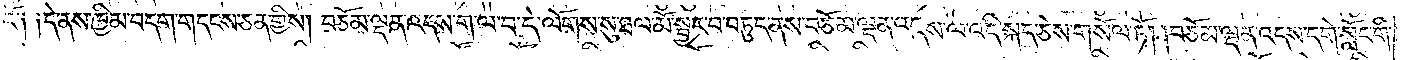ངོ༑ ༑དེ་ནས་ཁྱིམ་བདག་གདངས་ཅན་གྱིས། བཅོམ་ལྡན་འདས་ག་ལ་བ་དེ་ལོགས་སུ་ཐལ་མོ་སྦྱར་བ་བཏུད་ནས་བཅོམ་ལྡན་འདས་ལ་འདི་སྐད་ཅེས་གསོལ་ཏོ། །བཅོམ་ལྡན་འདས་དགེ་སློང་གི་
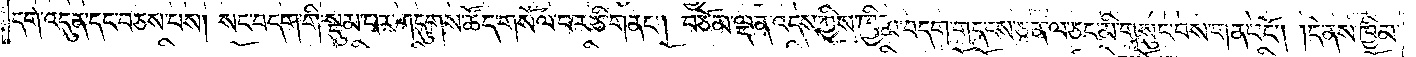དགེ་འདུན་དང་བཅས་པས། སང་བདག་གི་སྡུམ་པར་གདུགས་ཚོད་གསོལ་བར་ཅི་གནང༌། བཅོམ་ལྡན་འདས་ཀྱིས་ཁྱིམ་བདག་གདངས་ཅན་ལ་ཅང་མི་གསུང་བས་གནང་ངོ༌། །དེ་ནས་ཁྱིམ་
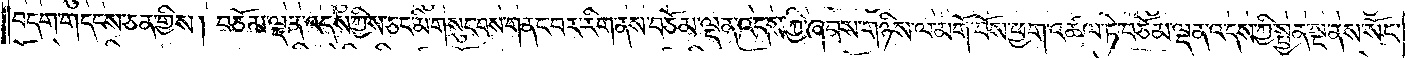བདག་གདངས་ཅན་གྱིས། བཅོམ་ལྡན་འདས་ཀྱིས་ཅང་མི་གསུང་བས་གནང་བར་རིག་ནས་བཅོམ་ལྡན་འདས་ཀྱི་ཞབས་གཉིས་ལ་མགོ་བོས་ཕྱག་འཚལ་ཏེ་བཅོམ་ལྡན་འདས་ཀྱི་སྤྱན་སྔ་ནས་སོང་
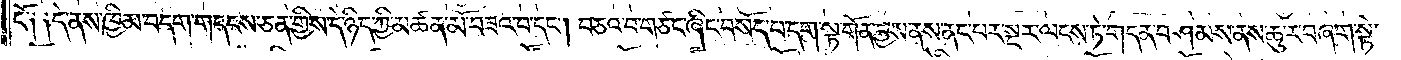ངོ༑ ༑དེ་ནས་ཁྱིམ་བདག་གདངས་ཅན་གྱིས་དེ་ཉིད་ཀྱི་མཚན་མོ་བཟའ་བ་དང༌། བཅའ་བ་གཙང་ཞིང་བསོད་པ་དག་སྟ་གོན་བྱས་ནས་ནང་པར་སྔར་ལངས་ཏེ་གདན་བཤམས་ནས་ཆུ་ར་བཞག་སྟེ་
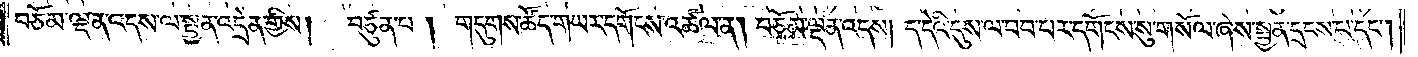བཅོམ་ལྡན་འདས་ལ་སྤྱན་འདྲེན་གྱིས། བཙུན་པ། གདུགས་ཚོད་གཡར་དགོངས་འཚལ་ན། བཅོམ་ལྡན་འདས། ད་དེའི་དུས་ལ་བབ་པར་དགོངས་སུ་གསོལ་ཞེས་སྤྱན་དྲངས་པ་དང༌།
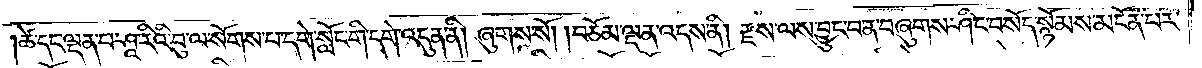ཚེ་དང་ལྡན་པ་ཤཱ་རིའི་བུ་ལ་སོགས་པ་དགེ་སློང་གི་དགེ་འདུན་ནི། ཞུགས་སོ། །བཅོམ་ལྡན་འདས་ནི། རྫས་ལས་བྱུང་བ་ན་བཞུགས་ཤིང་བསོད་སྙོམས་མངོན་པར་
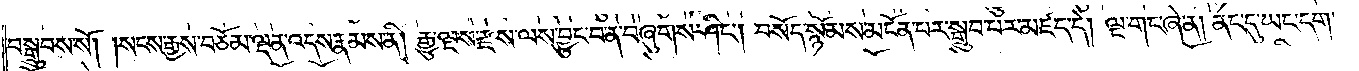བསྒྲུབས་སོ། །སངས་རྒྱས་བཅོམ་ལྡན་འདས་རྣམས་ནི། རྒྱུ་ལྔས་རྫས་ལས་བྱུང་བ་ན་བཞུགས་ཤིང༌། བསོད་སྙོམས་མངོན་པར་སྒྲུབ་པར་མཛད་དེ། ལྔ་གང་ཞེ་ན། ནང་དུ་ཡང་དག་
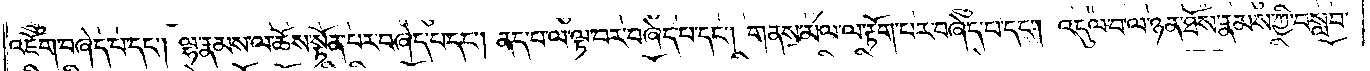འཇོག་བཞེད་པ་དང༌། ལྷ་རྣམས་ལ་ཆོས་སྟོན་པར་བཞེད་པ་དང༌། ནད་པ་ལ་ལྟ་བར་བཞེད་པ་དང༌། གནས་མལ་ལ་རྟོག་པར་བཞེད་པ་དང༌། འདུལ་བ་ལ་ཉན་ཐོས་རྣམས་ཀྱི་བསླབ་
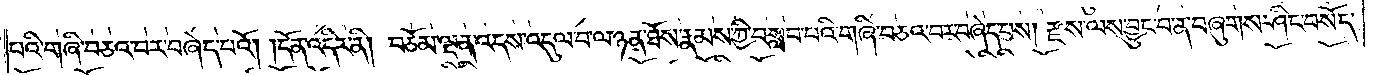པའི་གཞི་བཅའ་བར་བཞེད་པའོ། །དོན་འདིར་ནི། བཅོམ་ལྡན་འདས་འདུལ་བ་ལ་ཉན་ཐོས་རྣམས་ཀྱི་བསླབ་པའི་གཞི་བཅའ་བར་བཞེད་པས། རྫས་ལས་བྱུང་བ་ན་བཞུགས་ཤིང་བསོད་
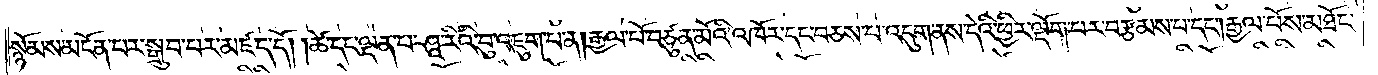སྙོམས་མངོན་པར་སྒྲུབ་པར་མཛད་དོ། །ཚེ་དང་ལྡན་པ་ཤཱ་རིའི་བུ་འཇུག་པ་ན། རྒྱལ་པོ་བཙུན་མོའི་འཁོར་དང་བཅས་པ་འདུག་ནས་དེའི་ཕྱིར་ལྡོག་པར་བརྩམས་པ་དང༌། རྒྱལ་པོས་མཐོང་
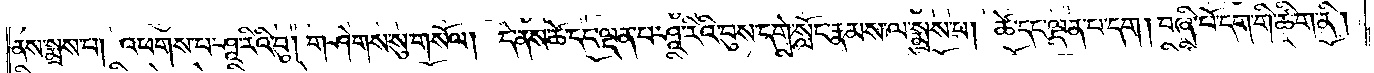ནས་སྨྲས་པ། འཕགས་པ་ཤཱ་རིའི་བུ། གཤེགས་སུ་གསོལ། དེ་ནས་ཚེ་དང་ལྡན་པ་ཤཱ་རིའི་བུས་དགེ་སློང་རྣམས་ལ་སྨྲས་པ། ཚེ་དང་ལྡན་པ་དག །བཞི་པོ་དག་གི་ཚིག་ནི།
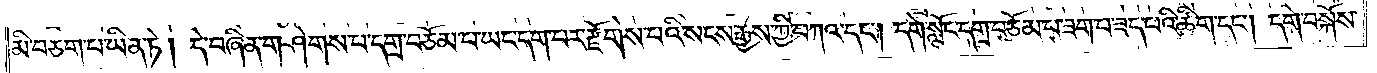མི་བཅག་པ་ཡིན་ཏེ། དེ་བཞིན་གཤེགས་པ་དགྲ་བཅོམ་པ་ཡང་དག་པར་རྫོགས་པའི་སངས་རྒྱས་ཀྱི་བཀའ་དང༌། དགེ་སློང་དགྲ་བཅོམ་པ་ཟག་པ་ཟད་པའི་ཚིག་དང༌། དགེ་བསྐོས་
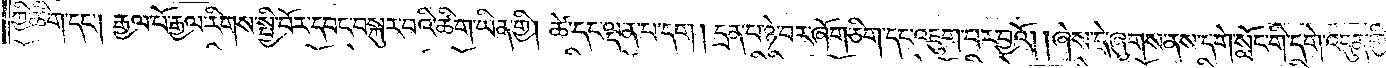ཀྱི་ཚིག་དང༌། རྒྱལ་པོ་རྒྱལ་རིགས་སྤྱི་བོར་དབང་བསྐུར་བའི་ཚིག་ཡིན་གྱི། ཚེ་དང་ལྡན་པ་དག །དྲན་པ་ཉེ་བར་ཞོག་ཅིག་དང་འཇུག་པར་བྱའོ། །ཞེས་དེ་ཞུགས་ནས་དགེ་སློང་གི་དགེ་འདུན་གྱི་
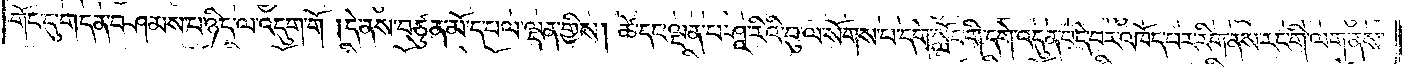གོང་དུ་གདན་བཤམས་པ་ཉིད་ལ་འདུག་གོ །དེ་ནས་བཙུན་མོ་དཔལ་ལྡན་གྱིས། ཚེ་དང་ལྡན་པ་ཤཱ་རིའི་བུ་ལ་སོགས་པ་དགེ་སློང་གི་དགེ་འདུན་བདེ་བར་འཁོད་པར་རིག་ནས་རང་གི་ལག་ནས་
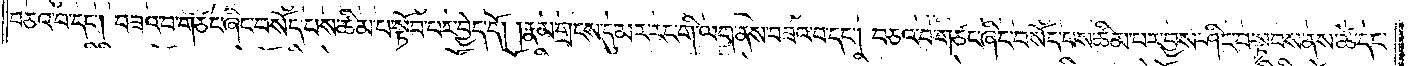བཅའ་བ་དང༌། བཟའ་བ་གཙང་ཞིང་བསོད་པས་ཚིམ་པ་སྟོབ་པར་བྱེད་དོ། །རྣམ་གྲངས་དུ་མར་རང་གི་ལག་ནས་བཟའ་བ་དང༌། བཅའ་བ་གཙང་ཞིང་བསོད་པས་ཚིམ་པར་བྱས་ཤིང་བསྟབས་ནས་ཚེ་དང་
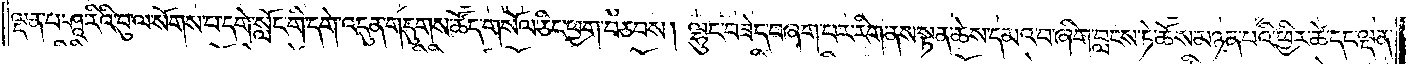ལྡན་པ་ཤཱ་རིའི་བུ་ལ་སོགས་པ་དགེ་སློང་གི་དགེ་འདུན་གདུགས་ཚོད་གསོལ་ཅིང་ཕྱག་བཅབས། ལྷུང་བཟེད་བཞག་པར་རིག་ནས་སྟན་ཆེས་དམའ་བ་ཞིག་བླངས་ཏེ་ཆོས་མཉན་པའི་ཕྱིར་ཚེ་དང་ལྡན་
